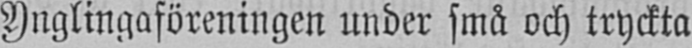Ynglingaföreningen under små och tryckta
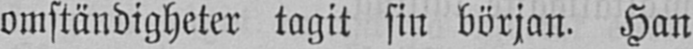omständigheter tagit sin början. Han
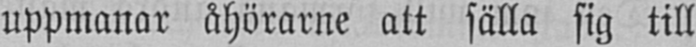uppmanar åhörarne att sälla sig till
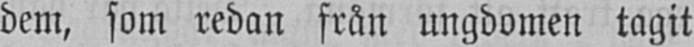dem, som redan från ungdomen tagit
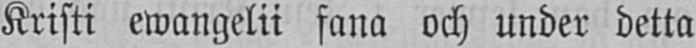Kristi ewangelii fana och under detta
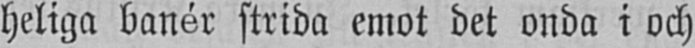heliga banér strida emot det onda i och
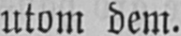utom dem.
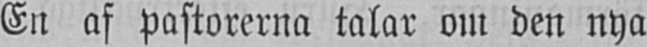En af pastorerna talar om den nya
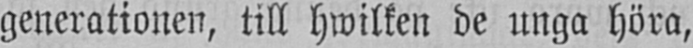generationen, till hwilken de unga höra,
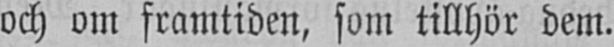och om framtiden, som tillhör dem.
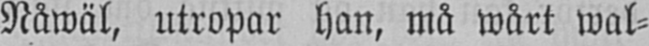Nåwäl, utropar han, må wårt wal-
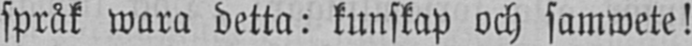språk wara detta: kunskap och samwete!
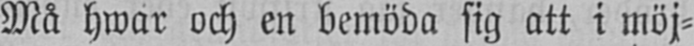Må hwar och en bemöda sig att i möj-
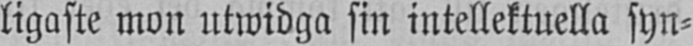ligaste mon utwidga sin intellektuella syn-
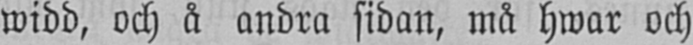widd, och å andra sidan, må hwar och
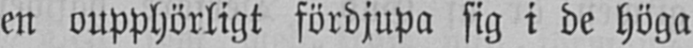en oupphörligt fördjupa sig i de höga
